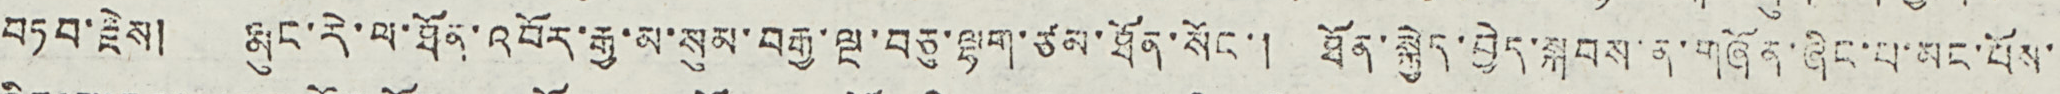བཏབ་རྗེས། རྨུང་རེ་ལ་ཐོན་འབོར་རྒྱ་མ་སུམ་བརྒྱ་ལྔ་བཅུ་ལྷག་ཙམ་ཐོན་སོང་། ཐོན་སྐྱེད་བྱེད་སྐབས་ན་གཞོན་ཞིང་པ་མང་པོས་
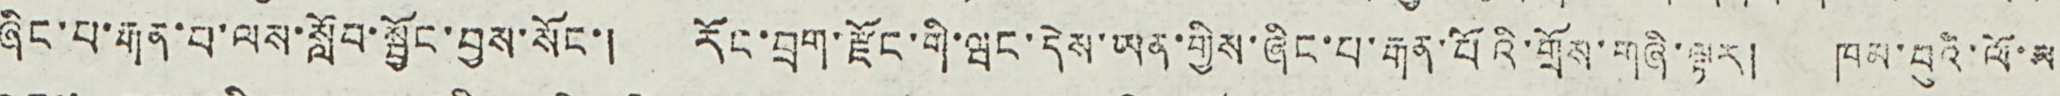ཞིང་པ་རྒན་པ་ལས་སློབ་སྦྱོང་བྱས་སོང་། རོང་བྲག་རྫོང་གི་ཝང་དེས་ཡན་གྱིས་ཞིང་པ་རྒན་པོའི་གྲོས་གཞི་ལྟར། ཁམ་བུའི་ལོ་མ
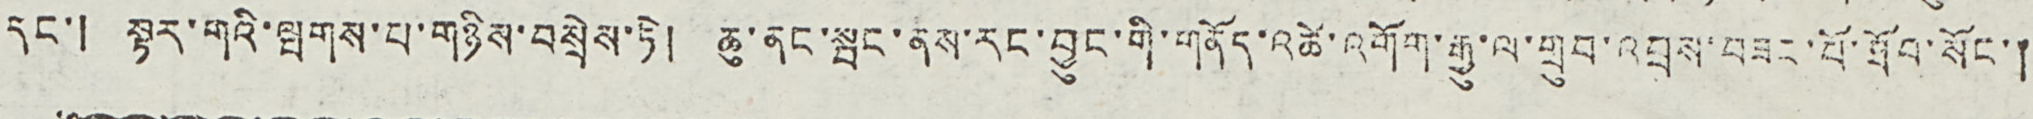དང་། སྟར་གའི་ལྤགས་པ་གཉིས་བསྲེས་ཏེ། ཆུ་ནང་སྦང་ནས་རང་བྱུང་གི་གནོད་འཚེ་འགོག་རྒྱུ་ལ་གྲུབ་འབྲས་བཟང་པོ་ཐོབ་སོང་།
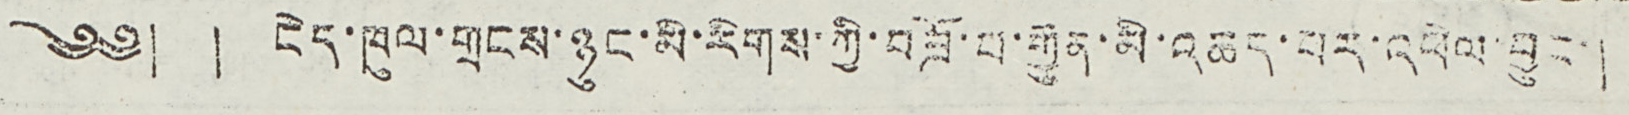༄༅། ། ངེད་ཁུལ་གྲངས་ཉུང་མི་རིགས་ཀྱི་བཟོ་པ་རྒྱུན་མི་འཆད་པར་འཕེལ་བྱུང་།
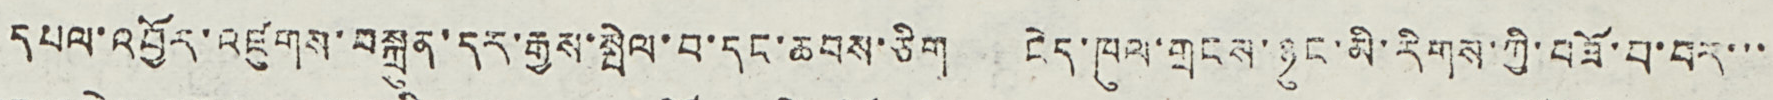དཔལ་འབྱོར་འཛུགས་བསྐྲུན་དར་རྒྱས་སྤེལ་བ་དང་ཆབས་ཅིག ངེད་ཁུལ་གྲངས་ཉུང་མི་རིགས་ཀྱི་བཟོ་བ་བར་་་
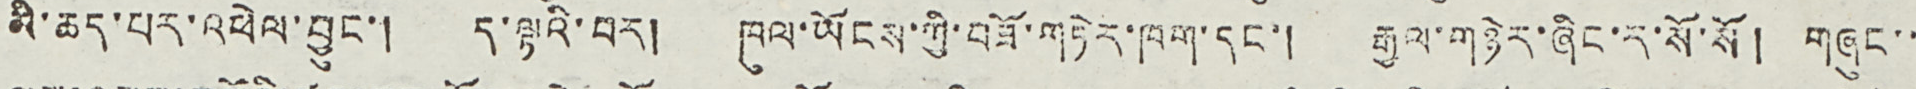མི་ཆད་པར་འཕེལ་བྱུང་། ད་ལྟའི་བར། ཁུལ་ཡོངས་ཀྱི་བཟོ་གཏེར་ཁག་དང་། རྒྱལ་གཉེར་ཞིང་ར་སོ་སོ། གཞུང་་
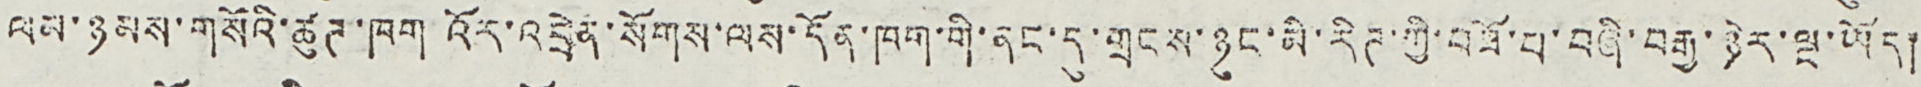ལམ་ཉམས་གསོའི་ཚུཊ་ཁག འོར་འབྲེན་སོགས་ལས་དོན་ཁག་གི་ནང་དུ་གྲངས་ཉུང་མི་རིཊ་ཀྱི་བཟོ་པ་བཞི་བརྒྱ་ཉེར་ལྔ་ཡོད།
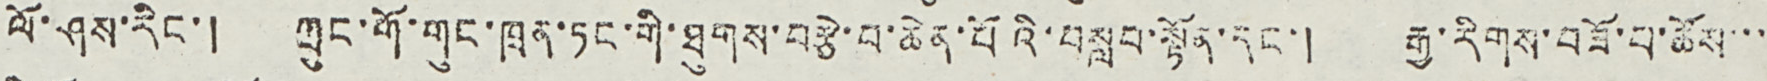ལོ་ཤས་རིང་། ཀྲུང་གོ་གུང་ཁྲན་ཏང་གི་ཐུགས་བརྩེ་བ་ཆེན་པོའི་བསླབ་སྟོན་དང་། རྒྱ་རིགས་བཟོ་པ་ཚོས་་་
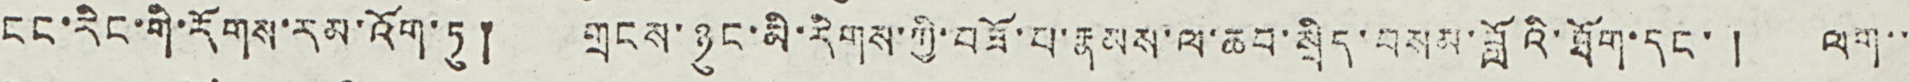ངང་རིང་གི་རོགས་རམ་འོག་ཏུ། གྲངས་ཉུང་མི་རིགས་ཀྱི་བཟོ་པ་རྣམས་ལ་ཆབ་སྲིད་བསམ་བློའི་ཐོག་དང་། ལག་་
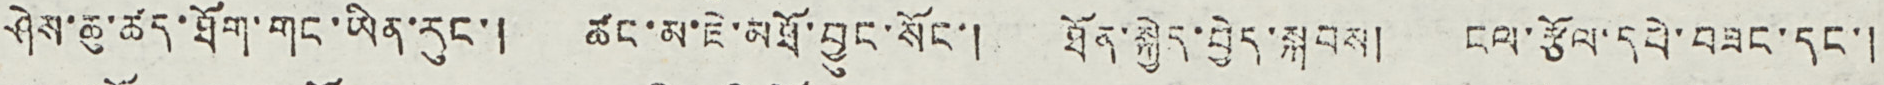ཤེས་ཆུ་ཚད་ཐོག་གང་ཡིན་རུང་། ཚང་མ་ཇེ་མཐོ་བྱུང་སོང་། ཐོན་སྐྱེད་བྱེད་སྐབས། ངལ་རྩོལ་དཔེ་བཟང་དང་།
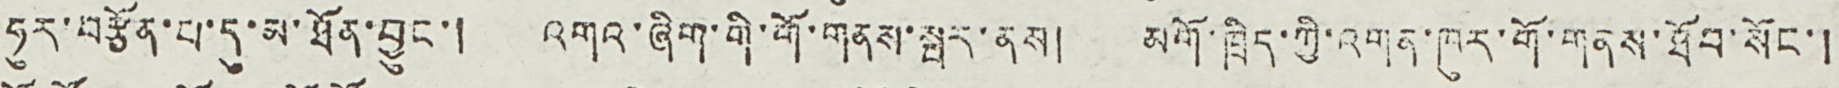ཧེར་བརྩོན་པ་དུ་མ་ཐོན་བྱུང་། འགའ་ཞིག་གི་གོ་གནས་སྦར་ནས། མགོ་ཁྲིད་ཀྱི་འགན་ཁུར་གོ་གནས་ཐོབ་སོང་།
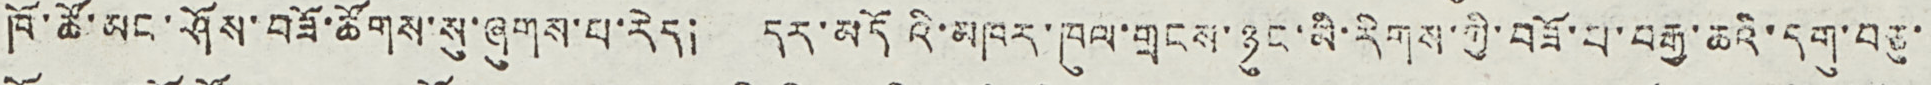ཁོ་ཚོ་མང་ཤོས་བཟོ་ཚོགས་སུ་ཞུགས་པ་རེད། དར་མདོའི་མཁར་ཁུལ་གྲངས་ཉུང་མི་རིགས་ཀྱི་བཟོ་པ་བརྒྱ་ཆའི་དགུ་བཅུ་
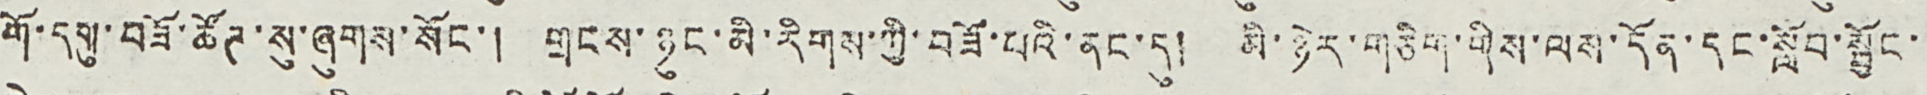གོ་དགུ་བཟོ་ཚོཊ་སུ་ཞུགས་སོང་། གྲངས་ཉུང་མི་རིགས་ཀྱི་བཟོ་པའི་ནང་དུ། མི་ཉེར་གཅིག་གིས་ལས་དོན་དང་སློབ་སྦྱོང་
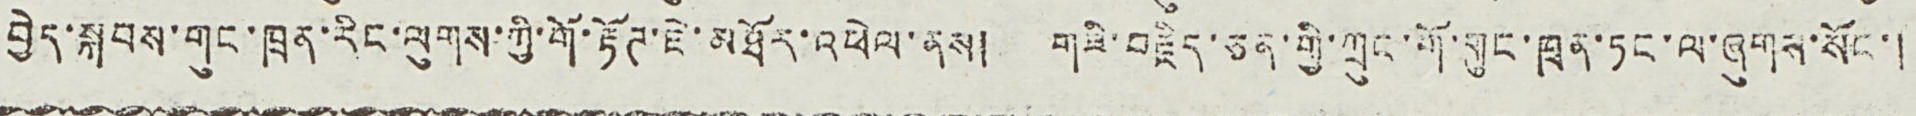བྱེད་སྐབས་གུང་ཁྲན་རིང་ལུགས་ཀྱི་གོ་རྟོཊ་ཇེ་མཐོར་འཕེལ་ནས། གཟི་བརྗིད་ཅན་གྱི་ཀྲུང་གོ་གུང་ཁྲན་ཏང་ལ་ཞུགས་སོང་།
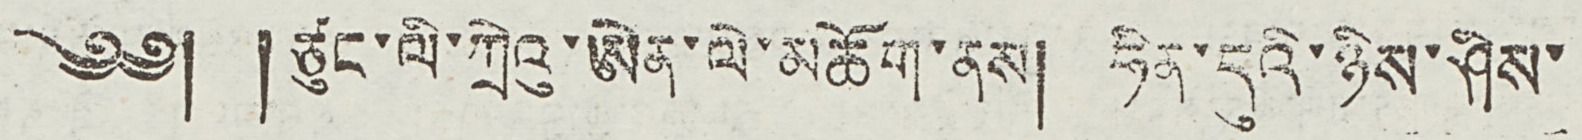༄༅། །ཙུང་ལི་ཀྲེའུ་ཨེན་ལེ་མཆོག་ནས། ཧིན་དུའི་ཉིས་ཤིས་
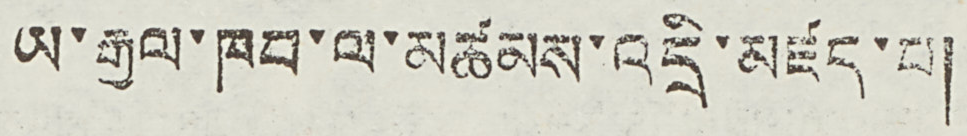ཡ་རྒྱལ་ཁབ་ལ་མཚམས་འདྲི་མཛད་པ།
